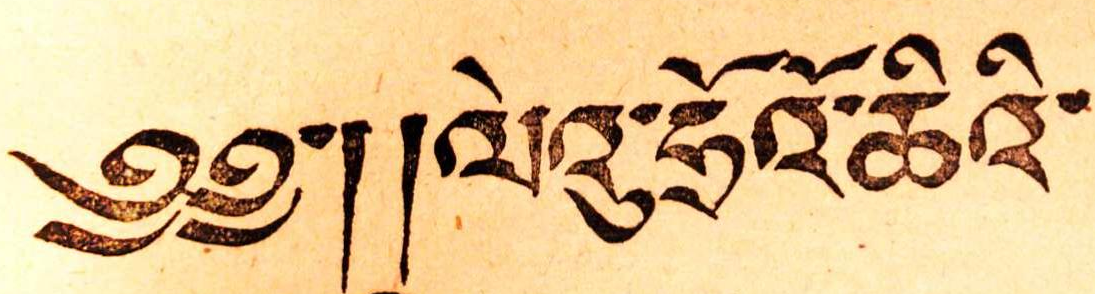༄༅་།།ལེའུ་ཧྲོའོ་ཆིའི་
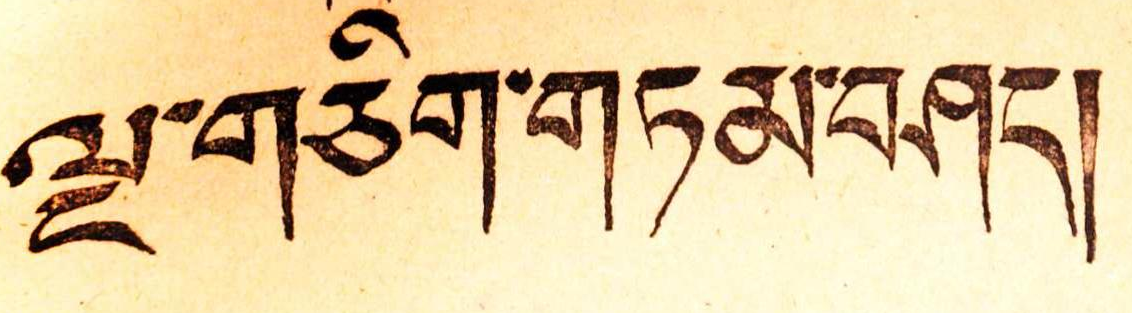ལྔ་གཅིག་གཏམ་བཤད།
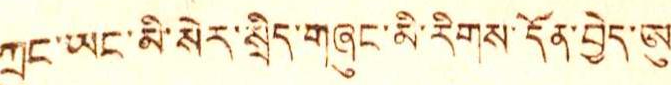ཀྲུང་ཡང་མི་སེར་སྲིད་གཞུང་མི་རིགས་དོན་བྱེད་ཨུ་
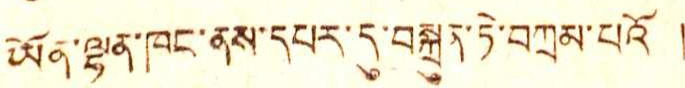ཡོན་ལྷན་ཁང་ནས་དཔར་དུ་བསྐྲུན་ཏེ་བཀྲམ་པའོ །
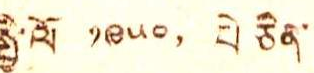སྤྱི་ལོ ༡༩༥༠, པེ་ཅིན
